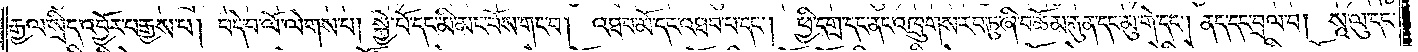རྒྱལ་སྲིད་འབྱོར་པ་རྒྱས་པ། བདེ་བ་ལོ་ལེགས་པ། སྐྱེ་བོ་དང་མི་མང་པོས་གང་བ། འཐབ་མོ་དང་འཐབ་པ་དང༌། ཕྱི་དགྲ་དང་ནང་འཁྲུགས་རབ་ཏུ་ཞི་བ་ཆོམ་རྐུན་དང་མུ་གེ་དང༌། ནད་དང་བྲལ་བ། སཱ་ལུ་དང་
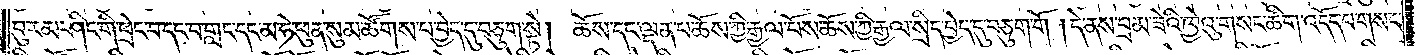བུ་རམ་ཤིང་གི་ཕྲེང་བ་དང་བ་གླང་དང་མ་ཧེ་ཕུན་སུམ་ཚོགས་པ་བྱེད་དུ་བཅུག་སྟེ། ཆོས་དང་ལྡན་པ་ཆོས་ཀྱི་རྒྱལ་པོས་ཆོས་ཀྱི་རྒྱལ་སྲིད་བྱེད་དུ་བཅུག་གོ །དེ་ནས་བྲམ་ཟེའི་ཁྱེའུ་གསང་ཚིག་འདོད་པ་གསང་
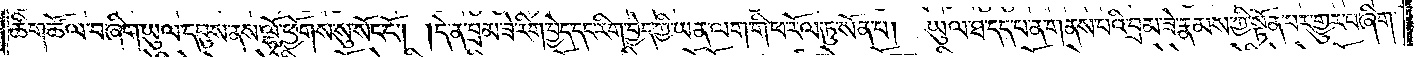ཚིག་ཚོལ་བ་ཞིག་ཡུལ་དབུས་ནས་ལྷོ་ཕྱོགས་སུ་སོང་ངོ༌། །དེ་ན་བྲམ་ཟེ་རིག་བྱེད་དང་རིག་བྱེད་ཀྱི་ཡན་ལག་གི་ཕ་རོལ་ཏུ་སོན་པ།ཡུལ་ཐ་དད་པ་ན་གནས་པའི་བྲམ་ཟེ་རྣམས་ཀྱི་སྟོན་པར་གྱུར་པ་ཞིག་
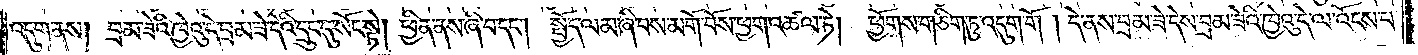འདུག་ནས། བྲམ་ཟེའི་ཁྱེའུ་དེ་བྲམ་ཟེ་དེའི་དྲུང་དུ་སོང་སྟེ། ཕྱིན་ནས་ཞི་བ་དང༌། སྤྱོད་ལམ་ཞི་བས་མགོ་བོས་ཕྱག་འཚལ་ཏེ།ཕྱོགས་གཅིག་ཏུ་འདུག་གོ །དེ་ནས་བྲམ་ཟེ་དེས་བྲམ་ཟེའི་ཁྱེའུ་དེ་ལ་འོངས་པ་
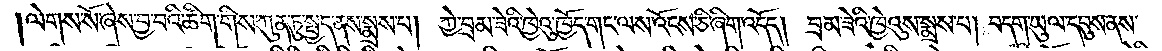།ལེགས་སོ་ཞེས་བྱ་བའི་ཚིག་གིས་ཀུན་ཏུ་སྤྱད་ནས་སྨྲས་པ། ཀྱེ་བྲམ་ཟེའི་ཁྱེའུ་ཁྱོད་གང་ལས་འོངས་ཅི་ཞིག་འདོད། བྲམ་ཟེའི་ཁྱེའུས་སྨྲས་པ། བདག་ཡུལ་དབུས་ནས་
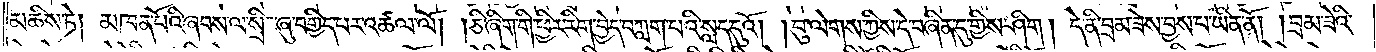མཆིས་ཏེ། མཁན་པོའི་ཞབས་ལ་སྲི་ཞུ་བགྱིད་པར་འཚལ་ལོ། །ཅི་ཞིག་གི་ཕྱིར་རིག་བྱེད་བཀླག་པའི་སླད་དུའོ། །བུ་ལེགས་ཀྱིས་དེ་བཞིན་དུ་གྱིས་ཤིག། དེ་ནི་བྲམ་ཟེས་བྱས་པ་ཡིན་ནོ། །བྲམ་ཟེའི་
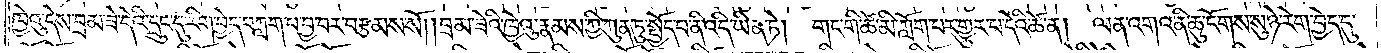ཁྱེའུ་དེས་བྲམ་ཟེ་དེའི་དྲུང་དུ་རིག་བྱེད་བཀླག་པ་བྱ་བར་བརྩམས་སོ། །བྲམ་ཟེའི་ཁྱེའུ་རྣམས་ཀྱི་ཀུན་ཏུ་སྤྱོད་པ་ནི་འདི་ཡིན་ཏེ། གང་གི་ཚེ་མི་ཀློག་པར་གྱུར་པ་དེའི་ཚེ་ན། ལན་འགའ་ནི་ཆུ་ངོགས་སུ་ཉེ་རེག་བྱེད་དུ་
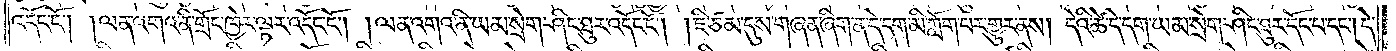འདོང་ངོ༌། །ལན་འགའ་ནི་གྲོང་ཁྱེར་ལྟར་འདོང་ངོ༌། །ལན་འགའ་ནི་ཡམ་སྲེག་ཤིང་ཐུར་འདོང་ངོ༌། །ཇི་ཙམ་དུས་གཞན་ཞིག་ན་དེ་དག་མི་ཀློག་པར་གྱུར་ནས། དེའི་ཚེ་དེ་དག་ཡམ་སྲེག་ཤིང་ཐུར་དོང་པ་དང༌། དེ་
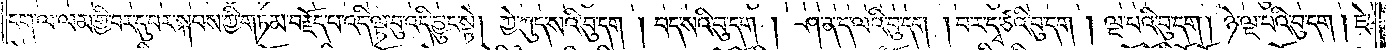དག་ལ་ལམ་གྱི་བར་དུ་བར་སྐབས་ཀྱི་གཏམ་བརྗོད་པ་འདི་ལྟ་བུ་འདི་བྱུང་སྟེ། ཀྱེ་ཀུད་སའི་བུ་དག། བད་སའི་བུ་དག། ཤ་ནད་ལའི་བུ་དག །བ་ར་དྭ་ཙའི་བུ་དག། ལྔ་པའི་བུ་དག། ཉེ་ལྔ་པའི་བུ་དག། ཇེ་
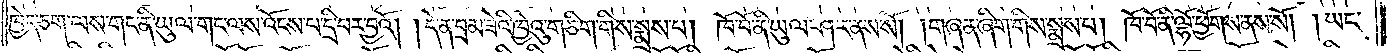ཁྱེད་ཅག་ལས་གང་ནི་ཡུལ་གང་ལས་འོངས་པ་དྲི་བར་བྱའོ། །དེ་ན་བྲམ་ཟེའི་ཁྱེའུ་གཅིག་གིས་སྨྲས་པ། ཁོ་བོ་ནི་ཡུལ་ཤར་ནས་སོ། །གཞན་ཞིག་གིས་སྨྲས་པ། ཁོ་བོ་ནི་ལྷོ་ཕྱོགས་ནས་སོ། །ཡང་
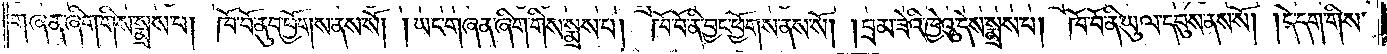གཞན་ཞིག་གིས་སྨྲས་པ། ཁོ་བོ་ནུབ་ཕྱོགས་ནས་སོ། །ཡང་གཞན་ཞིག་གིས་སྨྲས་པ། ཁོ་བོ་ནི་བྱང་ཕྱོགས་ནས་སོ། །བྲམ་ཟེའི་ཁྱེའུ་དེས་སྨྲས་པ། ཁོ་བོ་ནི་ཡུལ་དབུས་ནས་སོ། །དེ་དག་གིས་
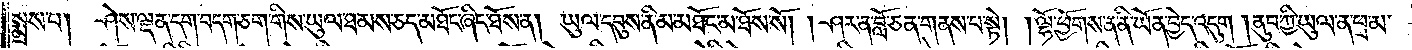སྨྲས་པ། ཤེས་ལྡན་དག་བདག་ཅག་གིས་ཡུལ་ཐམས་ཅད་མཐོང་ཞིང་ཐོས་ན། ཡུལ་དབུས་ནི་མ་མཐོང་མ་ཐོས་སོ། །ཤར་ན་བློ་ཅན་གནས་པ་སྟེ། །ལྷོ་ཕྱོགས་ན་ནི་ཡོན་བྱེད་འདུག །ནུབ་ཀྱི་ཡུལ་ན་ཕྲ་མ་
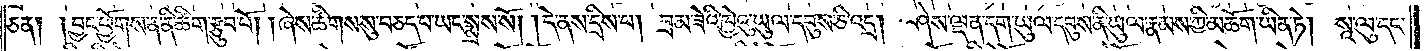ཅན། །བྱང་ཕྱོགས་ན་ནི་ཚིག་རྩུབ་པོ། །ཞེས་ཚིགས་སུ་བཅད་པ་ཡང་སྨྲས་སོ། །དེ་ནས་དྲིས་པ། བྲམ་ཟེའི་ཁྱེའུ་ཡུལ་དབུས་ཅི་འདྲ། ཤེས་ལྡན་དག་ཡུལ་དབུས་ནི་ཡུལ་རྣམས་ཀྱི་མཆོག་ཡིན་ཏེ། སཱ་ལུ་དང་
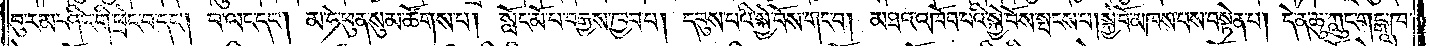བུ་རམ་ཤིང་གི་ཕྲེང་བ་དང༌། བ་ལང་དང༌། མ་ཧེ་ཕུན་སུམ་ཚོགས་པ། སློང་མོ་པ་བརྒྱས་ཁྱབ་པ། དབུས་པའི་སྐྱེ་བོས་གང་བ། མཐའ་འཁོབ་པའི་སྐྱེ་བོས་སྤངས་པ། སྐྱེ་བོ་མཁས་པས་བསྟེན་པ། དེ་ན་ཆུ་ཀླུང་གངྒཱ་ཁ་
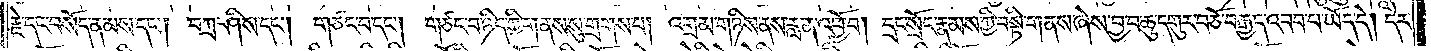རྗེ་དང་བསོད་ནམས་དང༌། བཀྲ་ཤིས་དང༌། གཙང་བ་དང༌། གཙང་བ་ཉིད་ཀྱི་གནས་སུ་གྲགས་པ། འགྲམ་གཉིས་ནས་རླན་འཕྱོ་བ། དྲང་སྲོང་རྣམས་ཀྱི་བསྟི་གནས་ཞེས་བྱ་བ་ཆུ་དགུར་བཅོ་བརྒྱད་འབབ་པ་ཡོད་དེ། དེར་
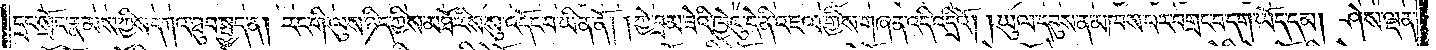དྲང་སྲོང་རྣམས་ཀྱིས་དཀའ་ཐུབ་སྤྱད་ན། རང་གི་ལུས་ཉིད་ཀྱིས་མཐོ་རིས་སུ་འདོང་བ་ཡིན་ནོ། །ཀྱེ་བྲམ་ཟེའི་ཁྱེའུ་དེ་ནི་འཇལ་གྱིས་གཞན་འདི་འདྲིའོ། །ཡུལ་དབུས་ན་མཁས་པར་བགྲང་བ་དག་ཡོད་དམ། ཤེས་ལྡན་
